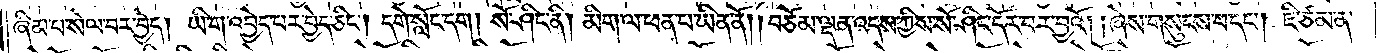ཞིམ་པ་སེལ་བར་བྱེད། ཡི་ག་འབྱེད་པར་བྱེད་ཅིང༌། དགེ་སློང་དག། སོ་ཤིང་ནི། མིག་ལ་ཕན་པ་ཡིན་ནོ། །བཅོམ་ལྡན་འདས་ཀྱིས་སོ་ཤིང་དོར་བར་བྱའོ། །ཞེས་གསུངས་པ་དང༌། ཇི་ཙམ་ན་
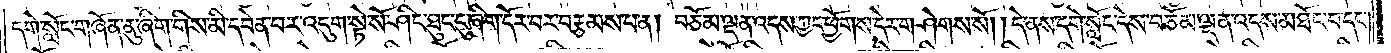དགེ་སློང་གཞོན་ནུ་ཞིག་གིས་མི་དབེན་པར་འདུག་སྟེ་སོ་ཤིང་ཐུང་ངུ་ཞིག་དོར་བར་བརྩམས་པ་ན། བཅོམ་ལྡན་འདས་ཀྱང་ཕྱོགས་དེར་གཤེགས་སོ། །དེ་ནས་དགེ་སློང་དེས་བཅོམ་ལྡན་འདས་མཐོང་བ་དང་
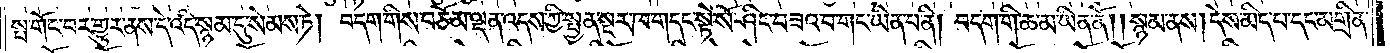སྤ་གོང་བར་གྱུར་ནས་དེ་འདི་སྙམ་དུ་སེམས་ཏེ། བདག་གིས་བཅོམ་ལྡན་འདས་ཀྱི་སྤྱན་སྔར་ཁ་གདང་སྟེ་སོ་ཤིང་བཟའ་བ་གང་ཡིན་པ་ནི། བདག་གི་ཆ་མ་ཡིན་ནོ། །སྙམ་ནས། དེས་མིད་པ་དང་མགྲིན་
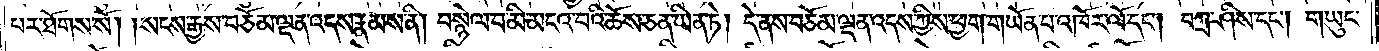པར་ཐོགས་སོ། །སངས་རྒྱས་བཅོམ་ལྡན་འདས་རྣམས་ནི། བསྙེལ་བ་མི་མངའ་བའི་ཆོས་ཅན་ཡིན་ཏེ། དེ་ནས་བཅོམ་ལྡན་འདས་ཀྱིས་ཕྱག་གཡོན་པ་འཁོར་ལོ་དང༌། བཀྲ་ཤིས་དང༌། གཡུང་
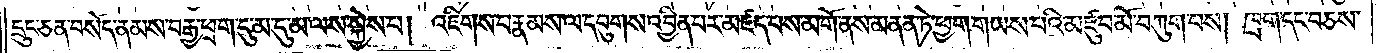དྲུང་ཅན་བསོད་ནམས་བརྒྱ་ཕྲག་དུ་མ་དུ་མ་ལས་སྐྱེས་པ། འཇིགས་པ་རྣམས་ལ་དབུགས་འབྱིན་པར་མཛད་པས་མགོ་ནས་མནན་ཏེ་ཕྱག་གཡས་པའི་མཛུབ་མོ་བཀུག་པས། ཁྲག་དང་བཅས་
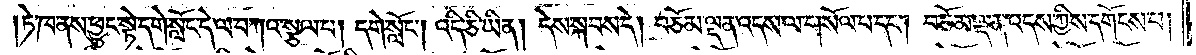ཏེ་ཁ་ནས་ཕྱུང་སྟེ་དགེ་སློང་དེ་ལ་བཀའ་སྩལ་པ། དགེ་སློང༌། འདི་ཅི་ཡིན། དེས་སྐབས་དེ། བཅོམ་ལྡན་འདས་ལ་གསོལ་པ་དང༌། བཅོམ་ལྡན་འདས་ཀྱིས་དགོངས་པ།
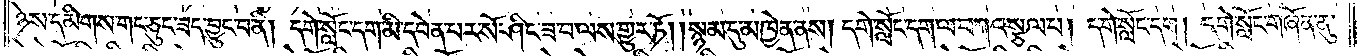ཉེས་དམིགས་གང་ཅུང་ཟད་བྱུང་བ་ནི། དགེ་སློང་དག་མི་དབེན་པར་སོ་ཤིང་ཟ་བ་ལས་གྱུར་ཏོ། །སྙམ་དུ་མཁྱེན་ནས། དགེ་སློང་དག་ལ་བཀའ་སྩལ་པ། དགེ་སློང་དག། དགེ་སློང་གཞོན་ནུ་
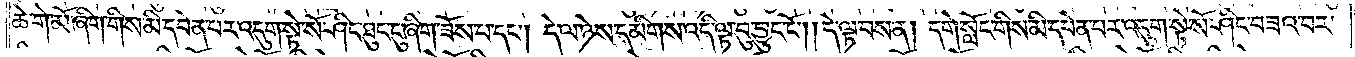ཆེ་གེ་མོ་ཞིག་གིས་མི་དབེན་པར་འདུག་སྟེ་སོ་ཤིང་ཐུང་ངུ་ཞིག་ཟོས་པ་དང༌། དེ་ལ་ཉེས་དམིགས་འདི་ལྟ་བུ་བྱུང་ངོ༌། །དེ་ལྟ་བས་ན། དགེ་སློང་གིས་མི་དབེན་པར་འདུག་སྟེ་སོ་ཤིང་བཟའ་བར་
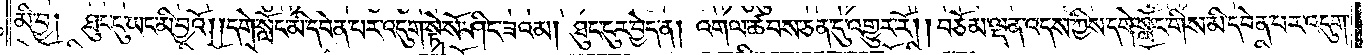མི་བྱ། ཐུང་ངུ་ཡང་མི་བྱའོ། །དགེ་སློང་མི་དབེན་པར་འདུག་སྟེ་སོ་ཤིང་ཟའམ། ཐུང་ངུར་བྱེད་ན། འགལ་ཚབས་ཅན་དུ་འགྱུར་རོ། །བཅོམ་ལྡན་འདས་ཀྱིས་དགེ་སློང་གིས་མི་དབེན་པར་འདུག་
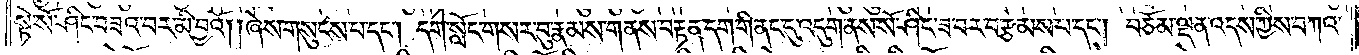སྟེ་སོ་ཤིང་བཟའ་བར་མི་བྱའོ། །ཞེས་གསུངས་པ་དང༌། དགེ་སློང་གསར་བུ་རྣམས་གནས་བརྟན་དག་གི་ནང་དུ་འདུག་ནས་སོ་ཤིང་ཟ་བར་བརྩམས་པ་དང༌། བཅོམ་ལྡན་འདས་ཀྱིས་བཀའ་
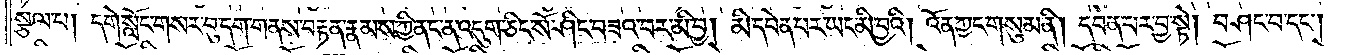སྩལ་པ། དགེ་སློང་གསར་བུ་དག་གནས་བརྟན་རྣམས་ཀྱི་ནང་ན་འདུག་ཅིང་སོ་ཤིང་བཟའ་བར་མི་བྱ། མི་དབེན་པར་ཡང་མི་བྱའི། འོན་ཀྱང་གསུམ་ནི། དབེན་པར་བྱ་སྟེ། བཤང་བ་དང༌།
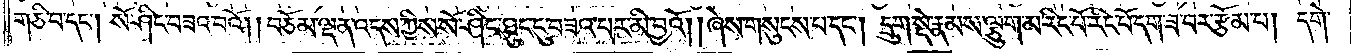གཅི་བ་དང༌། སོ་ཤིང་བཟའ་བའོ། །བཅོམ་ལྡན་འདས་ཀྱིས་སོ་ཤིང་ཐུང་ངུ་བཟའ་བར་མི་བྱའོ། །ཞེས་གསུངས་པ་དང༌། དྲུག་སྡེ་རྣམས་ལྕུག་མ་རིང་པོ་རིང་པོ་དག་ཟ་བར་རྩོམ་པ། དགེ་
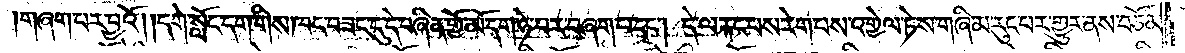གཞག་པར་བྱའོ། །དགེ་སློང་དག་གིས་ཁང་བཟང་དུ་དེ་བཞིན་གྱོ་མོ་དག་ཉེ་བར་བཞག་པ་དང༌། དེ་ལ་རྐང་པས་རེག་པས་འགྱེལ་ཏེ་ས་གཞི་མ་རུང་བར་གྱུར་ནས་བཅོམ་
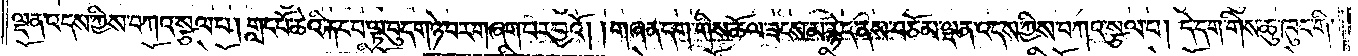ལྡན་འདས་ཀྱིས་བཀའ་སྩལ་པ། གླང་པོ་ཆེའི་རྐང་པ་ལྟ་བུ་དག་ཉེ་བར་གཞག་པར་བྱའོ། །གཞན་དག་གིས་ཆོལ་ཟངས་མ་རྙེད་ནས་བཅོམ་ལྡན་འདས་ཀྱིས་བཀའ་སྩལ་པ། དེ་དག་གིས་ཆུ་ཁུང་གི་
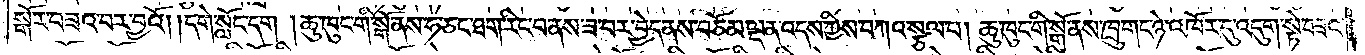སྒོར་བཟའ་བར་བྱའོ། །དགེ་སློང་དག །ཆུ་ཁུང་གི་སྒོ་ནས་ཧ་ཅང་ཐག་རིང་བ་ནས་ཟ་བར་བྱེད་ནས་བཅོམ་ལྡན་འདས་ཀྱིས་བཀའ་སྩལ་པ། ཆུ་ཁུང་གི་སྒོ་ནས་ཁྲུ་གང་ཉེ་འཁོར་དུ་འདུག་སྟེ་བཟའ་
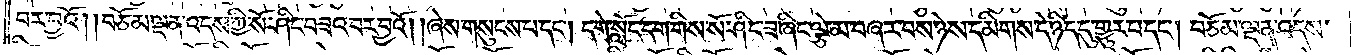བར་བྱའོ། །བཅོམ་ལྡན་འདས་ཀྱི་སོ་ཤིང་བཟའ་བར་བྱའོ། །ཞེས་གསུངས་པ་དང༌། དགེ་སློང་དག་གིས་སོ་ཤིང་ཟ་ཞིང་ལྕེ་མ་བཞར་བས་ཉེས་དམིགས་དེ་ཉིད་དུ་གྱུར་པ་དང༌། བཅོམ་ལྡན་འདས་
